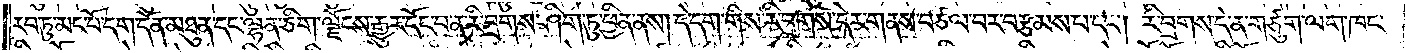རབ་ཏུ་མང་པོ་དག་དོན་མཐུན་དང་ལྷན་ཅིག་ལྗོངས་རྒྱུར་དོང་པ་ན་རི་བྲགས་ཤིག་ཏུ་ཕྱིན་ནས། དེ་དག་གིས་རི་བྲགས་དེར་གནས་བཙལ་བར་བརྩམས་པ་དང༌། རི་བྲགས་དེ་ན་གཙུག་ལག་ཁང་
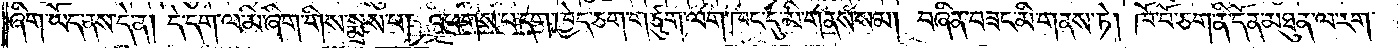ཞིག་ཡོད་ནས་དེ་ན། དེ་དག་ལ་མི་ཞིག་གིས་སྨྲས་པ། འཕགས་པ་དག་ཁྱེད་ཅག་གཙུག་ལག་ཁང་དུ་མི་གནས་སམ། བཞིན་བཟང་མི་གནས་ཏེ། ཁོ་བོ་ཅག་ནི་དོན་མཐུན་ལ་རག་
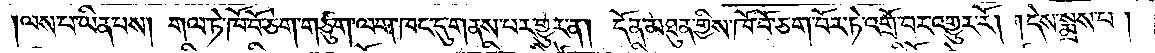ལས་པ་ཡིན་པས། གལ་ཏེ་ཁོ་བོ་ཅག་གཙུག་ལག་ཁང་དུ་གནས་པར་གྱུར་ན། དོན་མཐུན་གྱིས་ཁོ་བོ་ཅག་བོར་ཏེ་འགྲོ་བར་འགྱུར་རོ། །དེས་སྨྲས་པ།
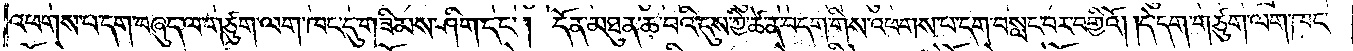འཕགས་པ་དག་བཞུད་ལ་གཙུག་ལག་ཁང་དུ་གཟིམས་ཤིག་དང༌། དོན་མཐུན་ཆ་བའི་དུས་ཀྱི་ཚེ་ན་བདག་གིས་འཕགས་པ་དག་བསླང་བར་བགྱིའོ། །དེ་དག་གཙུག་ལག་ཁང་
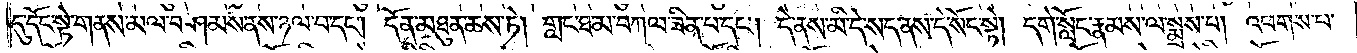དུ་དོང་སྟེ་གནས་མལ་བཤམས་ནས་ཉལ་བ་དང༌། དོན་མཐུན་ཆས་ཏེ། གླང་ཐ་མ་བཀལ་ཟིན་པ་དང༌། དེ་ནས་མི་དེ་སད་ནས་དེ་སོང་སྟེ། དགེ་སློང་རྣམས་ལ་སྨྲས་པ། འཕགས་པ་
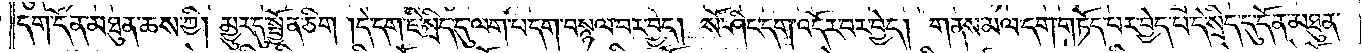དག་དོན་མཐུན་ཆས་ཀྱི། མྱུར་དུ་སྤྱོན་ཅིག །དེ་དག་ཇི་སྲིད་དུ་ལག་པ་དག་བསྙལ་བར་བྱེད། སོ་ཤིང་དག་འདོར་བར་བྱེད། གནས་མལ་དག་གཏོད་པར་བྱེད་པ་དེ་སྲིད་དུ་དོན་མཐུན་
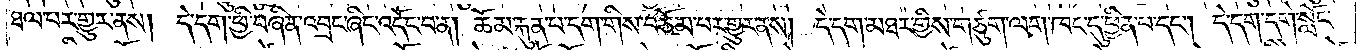ཐལ་བར་གྱུར་ནས། དེ་དག་ཕྱི་བཞིན་འབྲང་ཞིང་འདོང་བ་ན། ཆོམ་རྐུན་པ་དག་གིས་བཅོམ་པར་གྱུར་ནས། དེ་དག་མཐར་གྱིས་གཙུག་ལག་ཁང་དུ་ཕྱིན་པ་དང༌། དེ་དག་དགེ་སློང་
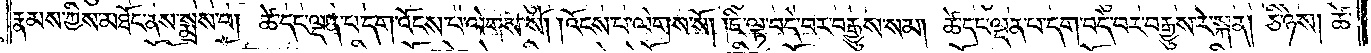རྣམས་ཀྱིས་མཐོང་ནས་སྨྲས་པ། ཚེ་དང་ལྡན་པ་དག་འོངས་པ་ལེགས་སོ། །འོངས་པ་ལེགས་སོ། །ཇི་ལྟ་བདེ་བར་བརྒྱུས་སམ། ཚེ་དང་ལྡན་པ་དག་བདེ་བར་བརྒྱུས་རེ་སྐན། ཅི་ཉེས། ཚེ་
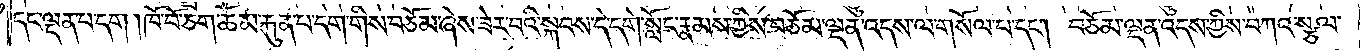དང་ལྡན་པ་དག །ཁོ་བོ་ཅག་ཆོམ་རྐུན་པ་དག་གིས་བཅོམ་ཞེས་ཟེར་བའི་སྐབས་དེ་དགེ་སློང་རྣམས་ཀྱིས་བཅོམ་ལྡན་འདས་ལ་གསོལ་པ་དང༌། བཅོམ་ལྡན་འདས་ཀྱིས་བཀའ་སྩལ་
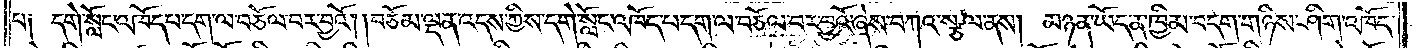པ། དགེ་སློང་འཁོད་པ་དག་ལ་བཅོལ་བར་བྱའོ། །བཅོམ་ལྡན་འདས་ཀྱིས་དགེ་སློང་འཁོད་པ་དག་ལ་བཅོལ་བར་བྱའོ་ཞེས་བཀའ་སྩལ་ནས། མཉན་ཡོད་ན་ཁྱིམ་བདག་གཉིས་ཤིག་འཁོད་
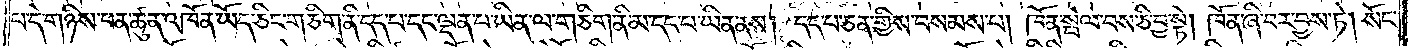པ་དེ་གཉིས་ཕན་ཚུན་འཁོན་ཡོད་ཅིང་གཅིག་ནི་དད་པ་དང་ལྡན་པ་ཡིན་ལ་གཅིག་ནི་མ་དད་པ་ཡིན་ནས། དད་པ་ཅན་གྱིས་བསམས་པ། ཁོན་སྤེལ་བས་ཅི་བྱ་སྟེ། ཁོན་ཞི་བར་བྱས་ཏེ། སོང་
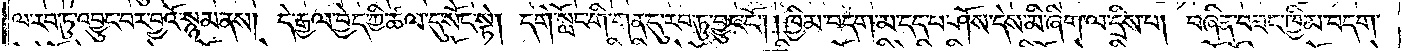ལ་རབ་ཏུ་འབྱུང་བར་བྱའོ་སྙམ་ནས། དེ་རྒྱལ་བྱེད་ཀྱི་ཚལ་དུ་སོང་སྟེ། དགེ་སློང་གི་གན་དུ་རབ་ཏུ་བྱུང་ངོ༌། །ཁྱིམ་བདག་མ་དད་པ་ཤོས་དེས་མི་ཞིག་ལ་དྲིས་པ། བཞིན་བཟང་ཁྱིམ་བདག་
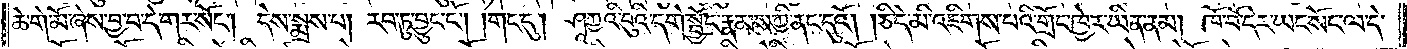ཆེ་གེ་མོ་ཞེས་བྱ་བ་དེ་གར་སོང༌། དེས་སྨྲས་པ། རབ་ཏུ་བྱུང་ངོ༌། །གང་དུ། ཤཱཀྱའི་བུའི་དགེ་སྦྱོང་རྣམས་ཀྱི་ནང་དུའོ། །ཅི་དེ་མི་འཇིགས་པའི་གྲོང་ཁྱེར་ཡིན་ནམ། ཁོ་བོ་དེར་ཡང་སོང་ལ་དེ་
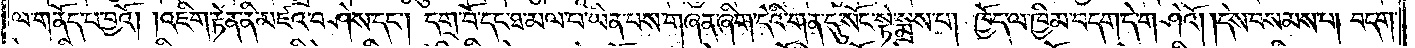ལ་གནོད་པ་བྱའོ། །འཇིག་རྟེན་ནི་མཛའ་བཤེས་དང༌། དགྲ་བོ་དང་ཐ་མལ་པ་ཡིན་པས་གཞན་ཞིག་དེའི་གན་དུ་སོང་སྟེ་སྨྲས་པ། ཁྱོད་ལ་ཁྱིམ་བདག་དེ་གཤེའོ། །དེས་བསམས་པ། བདག་
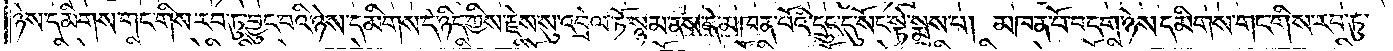ཉེས་དམིགས་གང་གིས་རབ་ཏུ་བྱུང་བའི་ཉེས་དམིགས་དེ་ཉིད་ཀྱིས་རྗེས་སུ་འབྲེལ་ཏོ་སྙམ་ནས་དེ་མཁན་པོའི་དྲུང་དུ་སོང་སྟེ་སྨྲས་པ། མཁན་པོ་བདག་ཉེས་དམིགས་གང་གིས་རབ་ཏུ་
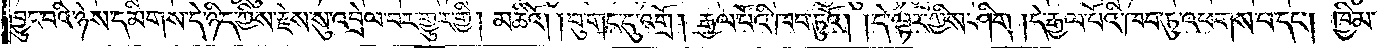བྱུང་བའི་ཉེས་དམིགས་དེ་ཉིད་ཀྱིས་རྗེས་སུ་འབྲེལ་བར་གྱུར་གྱི། མཆིའོ། །བུ་གང་དུ་འགྲོ། རྒྱལ་པོའི་ཁབ་ཏུའོ། །དེ་ལྟར་གྱིས་ཤིག །དེ་རྒྱལ་པོའི་ཁབ་ཏུ་འཕགས་པ་དང༌། ཁྱིམ་
